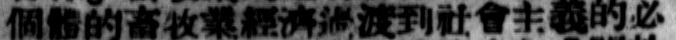個體的畜牧業經濟過渡到社會主義的必
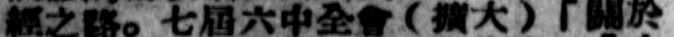經之路。七屆六中全會（擴大）「關於
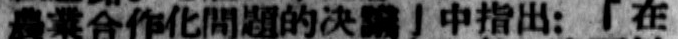農業合作化問題的決議」中指出：「在
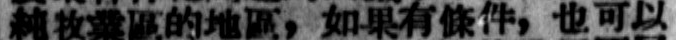純牧業區的地區，如果有條件，也可以
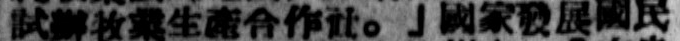試辦牧業生產合作社。」國家發展國民
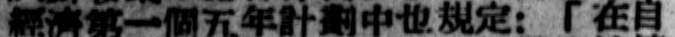經濟第一個五年計劃中也規定：「在自
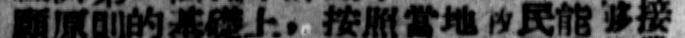願原則的基礎上，按照當地牧民能夠接
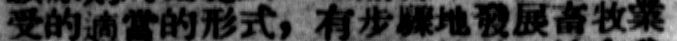受的適當的形式，有步驟地發展畜牧業
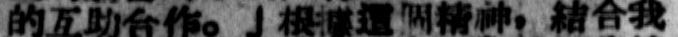的互助合作。」根據這個精神，結合我
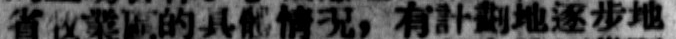省牧業區的具體情況，有計劃地逐步地
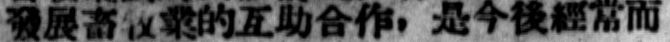發展畜牧業的互助合作，是今後經常而
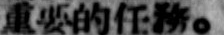重要的任務。
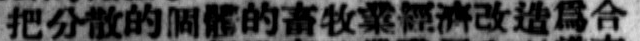把分散的個體的畜牧業經濟改造爲合
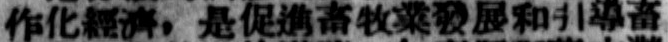作化經濟，是促進畜牧業發展和引導畜
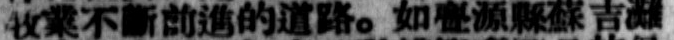牧業不斷前進的道路。如亹源縣蘇吉灘
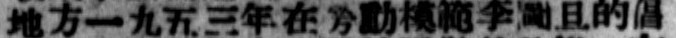地方一九五三年在勞動模範李圖且的倡
